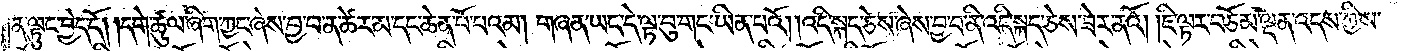ན་ལྟུང་བྱེད་དོ། །དགེ་ཚུལ་ཞིག་ཀྱང་ཞེས་བྱ་བ་ན་ཚེར་མ་དང་ཆེན་པོ་པའམ། གཞན་ཡང་དེ་ལྟ་བུ་གང་ཡིན་པའོ། །འདི་སྐད་ཅེས་ཞེས་བྱ་བ་ནི་འདི་སྐད་ཅེས་ཟེར་ནའོ། །ཇི་ལྟར་བཅོམ་ལྡན་འདས་ཀྱིས་
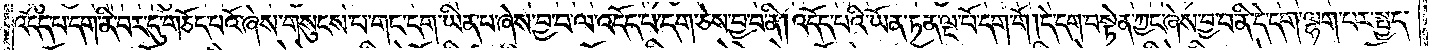འདོད་པ་དག་ནི་བར་དུ་གཅོད་པའོ་ཞེས་གསུངས་པ་གང་དག་ཡིན་པ་ཞེས་བྱ་བ་ལ་འདོད་པ་དག་ཅེས་བྱ་བ་ནི། འདོད་པའི་ཡོན་ཏན་ལྔ་པོ་དག་གོ །དེ་དག་བསྟེན་ཀྱང་ཞེས་བྱ་བ་ནི་དེ་དག་ལྷག་པར་སྤྱད་
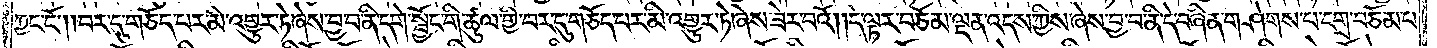ཀྱང་ངོ༌། །བར་དུ་གཅོད་པར་མི་འགྱུར་ཏེ་ཞེས་བྱ་བ་ནི་དགེ་སྦྱོང་གི་ཚུལ་གྱི་བར་དུ་གཅོད་པར་མི་འགྱུར་ཏེ་ཞེས་ཟེར་བའོ། །དེ་ལྟར་བཅོམ་ལྡན་འདས་ཀྱིས་ཞེས་བྱ་བ་ནི་དེ་བཞིན་གཤེགས་པ་དགྲ་བཅོམ་པ་
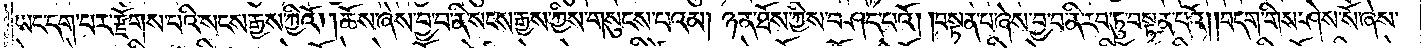ཡང་དག་པར་རྫོགས་པའི་སངས་རྒྱས་ཀྱིའོ། །ཆོས་ཞེས་བྱ་བ་ནི་སངས་རྒྱས་ཀྱིས་གསུངས་པའམ། ཉན་ཐོས་ཀྱིས་བཤད་པའོ། །བསྟན་པ་ཞེས་བྱ་བ་ནི་རབ་ཏུ་བསྟན་པའོ། །བདག་གིས་ཤེས་སོ་ཞེས་
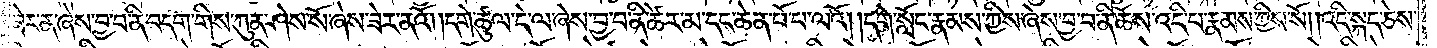ཟེར་ན་ཞེས་བྱ་བ་ནི་བདག་གིས་ཀུན་ཤེས་སོ་ཞེས་ཟེར་ནའོ། །དགེ་ཚུལ་དེ་ལ་ཞེས་བྱ་བ་ནི་ཚེར་མ་དང་ཆན་པོ་པ་ལའོ། །དགེ་སློང་རྣམས་ཀྱིས་ཞེས་བྱ་བ་ནི་ཆོས་འདི་པ་རྣམས་ཀྱིས་སོ། །འདི་སྐད་ཅེས་
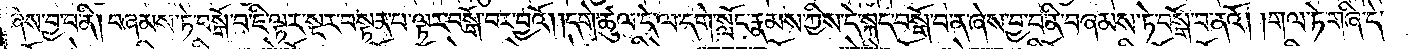ཞེས་བྱ་བ་ནི། བཞམས་ཏེ་བསྒོ་བ་ཇི་ལྟར་སྔར་བསྟན་པ་ལྟར་བསྒོ་བར་བྱའོ། །དགེ་ཚུལ་དེ་ལ་དགེ་སློང་རྣམས་ཀྱིས་དེ་སྐད་བསྒོ་བ་ན་ཞེས་བྱ་བ་ནི་བཞམས་ཏེ་བསྒོ་བ་ནའོ། །གལ་ཏེ་གཞི་དེ་
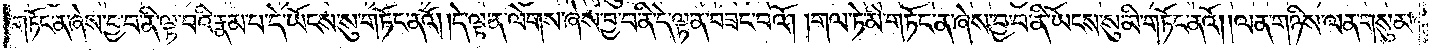གཏོང་ན་ཞེས་བྱ་བ་ནི་ལྟ་བའི་རྣམ་པ་དེ་ཡོངས་སུ་གཏོང་ནའོ། །དེ་ལྟ་ན་ལེགས་ཞེས་བྱ་བ་ནི་དེ་ལྟ་ན་བཟང་བའོ། །གལ་ཏེ་མི་གཏོང་ན་ཞེས་བྱ་བ་ནི་ཡོངས་སུ་མི་གཏོང་ནའོ། །ལན་གཉིས་ལན་གསུམ་
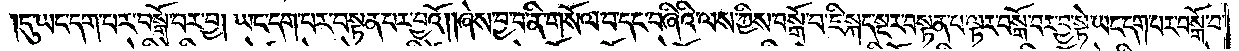དུ་ཡང་དག་པར་བསྒོ་བར་བྱ། ཡང་དག་པར་བསྟན་པར་བྱའོ། །ཞེས་བྱ་བ་ནི་གསོལ་བ་དང་བཞིའི་ལས་ཀྱིས་བསྒོ་བ་ཇི་སྐད་སྔར་བསྟན་པ་ལྟར་བསྒོ་བར་བྱ་སྟེ་ཡང་དག་པར་བསྒོ་བ་
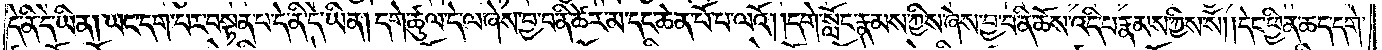དེ་ནི་དེ་ཡིན། ཡང་དག་པར་བསྟན་པ་དེ་ནི་དེ་ཡིན། དགེ་ཚུལ་དེ་ལ་ཞེས་བྱ་བ་ནི་ཚེར་མ་དང་ཆེན་པོ་པ་ལའོ། །དགེ་སློང་རྣམས་ཀྱིས་ཞེས་བྱ་བ་ནི་ཆོས་འདི་པ་རྣམས་ཀྱིས་སོ། །དེང་ཕྱིན་ཆད་དགེ་
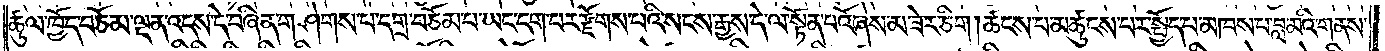ཚུལ་ཁྱོད་བཅོམ་ལྡན་འདས་དེ་བཞིན་གཤེགས་པ་དགྲ་བཅོམ་པ་ཡང་དག་པར་རྫོགས་པའི་སངས་རྒྱས་དེ་ལ་སྟོན་པའོ་ཞེས་མ་ཟེར་ཅིག །ཚངས་པ་མཚུངས་པར་སྤྱོད་པ་མཁས་པ་བླ་མའི་གནས་
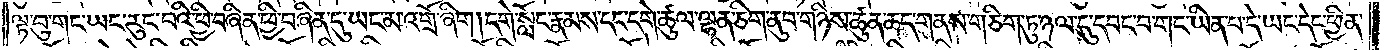ལྟ་བུ་གང་ཡང་རུང་བའི་ཕྱི་བཞིན་ཕྱི་བཞིན་དུ་ཡང་མ་འགྲོ་ཞིག །དགེ་སློང་རྣམས་དང་དགེ་ཚུལ་ལྷན་ཅིག་ནུབ་གཉིས་ཚུན་ཆད་གནས་གཅིག་ཏུ་ཉལ་དུ་དབང་བ་གང་ཡིན་པ་དེ་ཡང་དེང་ཕྱིན་
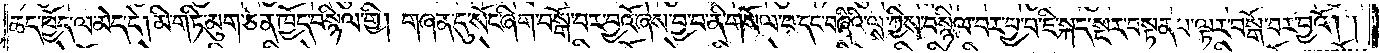ཆད་ཁྱོད་ལ་མེད་དེ། མི་གཏི་མུག་ཅན་ཁྱོད་བསྙིལ་གྱི། གཞན་དུ་སོང་ཞིག་བསྒོ་བར་བྱའོ་ཞེས་བྱ་བ་ནི་གསོལ་བ་དང་བཞིའི་ལས་ཀྱིས་བསྙིལ་བར་བྱ་བ་ཇི་སྐད་སྔར་བསྟན་པ་ལྟར་བསྒོ་བར་བྱའོ། །
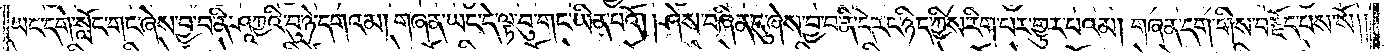ཡང་དགེ་སློང་གང་ཞེས་བྱ་བ་ནི་ཤཱཀྱའི་བུ་ཉེ་དགའ་མ། གཞན་ཡང་དེ་ལྟ་བུ་གང་ཡིན་པའོ། །ཤེས་བཞིན་དུ་ཞེས་བྱ་བ་ནི་དེ་རང་ཉིད་ཀྱིས་རིག་པར་གྱུར་པའམ། གཞན་དག་གིས་བརྗོད་པས་སོ། །
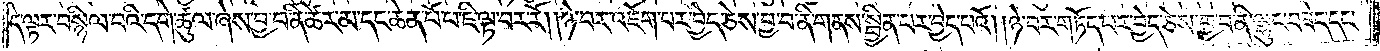དེ་ལྟར་བསྙིལ་བའི་དགེ་ཚུལ་ཞེས་བྱ་བ་ནི་ཚེར་མ་དང་ཆེན་པོ་པ་ཇི་ལྟ་བར་རོ། །ཉེ་བར་འཇོག་པར་བྱེད་ཅེས་བྱ་བ་ནི་གནས་སྦྱིན་པར་བྱེད་པའོ། །ཉེ་བར་གཏོད་པར་བྱེད་ཅེས་བྱ་བ་ནི་ལྷུང་བཟེད་དང་
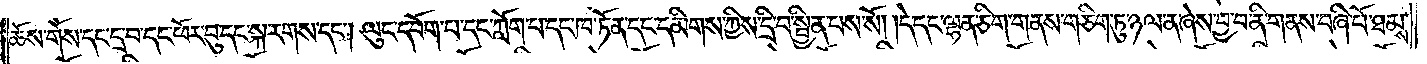ཆོས་གོས་དང་དྲ་བ་དང་ཕོར་བུ་དང་སྐ་རགས་དང༌། ལུང་དབོག་པ་དང་ཀློག་པ་དང་ཁ་ཏོན་དང་དམིགས་ཀྱིས་དྲི་བ་སྦྱིན་པས་སོ། །དེ་དང་ལྷན་ཅིག་གནས་གཅིག་ཏུ་ཉལ་ན་ཞེས་བྱ་བ་ནི་གནས་བཞི་པོ་ཐམས་
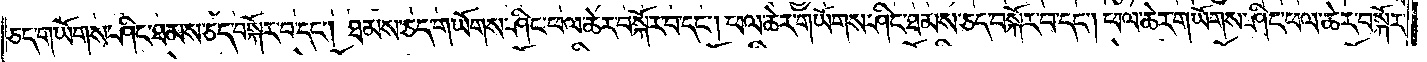ཅད་གཡོགས་ཤིང་ཐམས་ཅད་བསྐོར་བ་དང༌། ཐམས་ཅད་གཡོགས་ཤིང་ཕལ་ཆེར་བསྐོར་བ་དང༌། ཕལ་ཆེར་གཡོགས་ཤིང་ཐམས་ཅད་བསྐོར་བ་དང༌། ཕལ་ཆེར་གཡོགས་ཤིང་ཕལ་ཆེར་བསྐོར་
